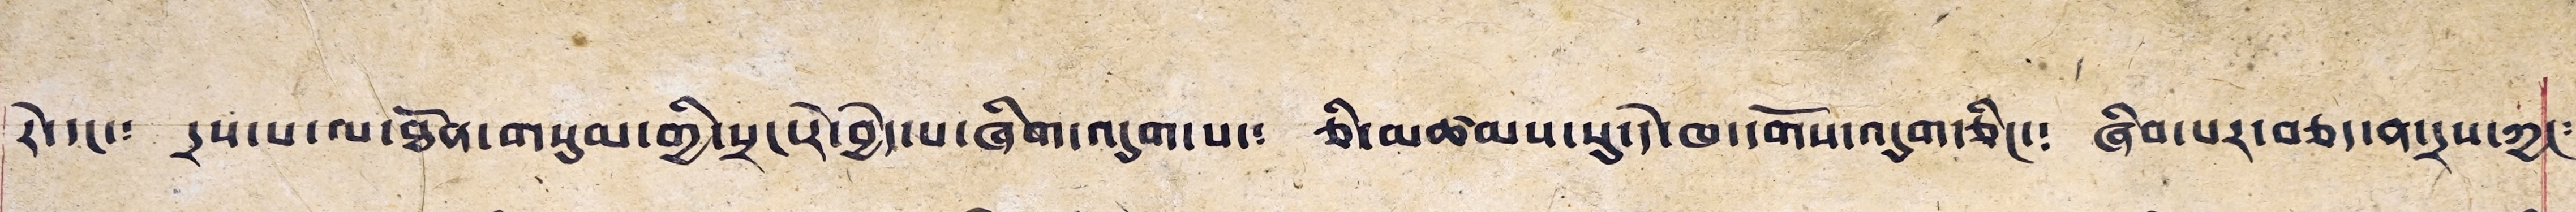རེ་དང་༴ དྲས་པ་ལ་ཐོན་གསུམ་གྱི་སྲང་རེ་བྱེད་པ་ཞིག་འདུག་པ་༴ ཅི་མཚམས་སུ་དེ་ཁ་དགོས་འདུག་ཅིང་༴ ཞིབ་པར་བཅད་ན་དྲས་ཀྱང༴
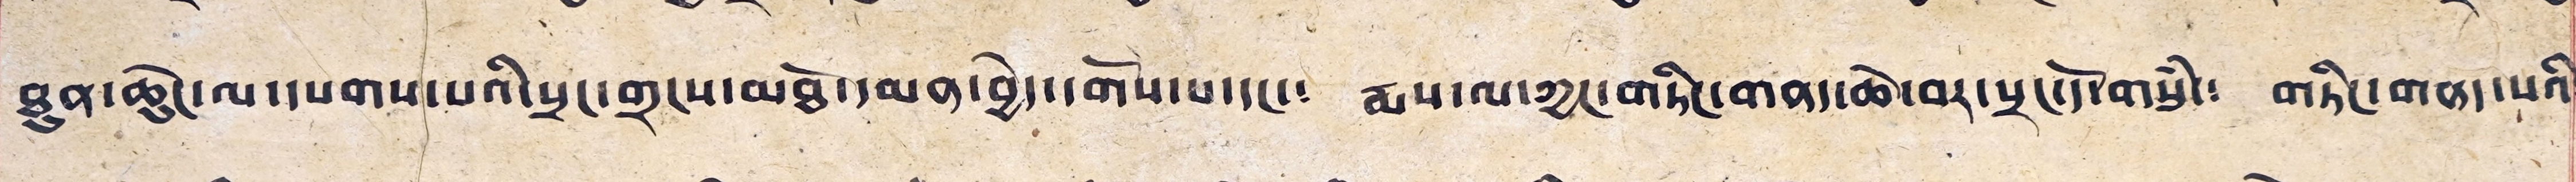ཐུན་ཆེུང་ལ་དཔགས་པའི་སྲང་གྲངས་མཐོ་དམན་བྱེད་དགོས་པ་དང་༴ རྨས་ལ་ཀྱང་གཏིང་གནད་ཆེ་བར་སྲང་དོ་གསུཾ་༴ གཏིང་གནད་པའི༴
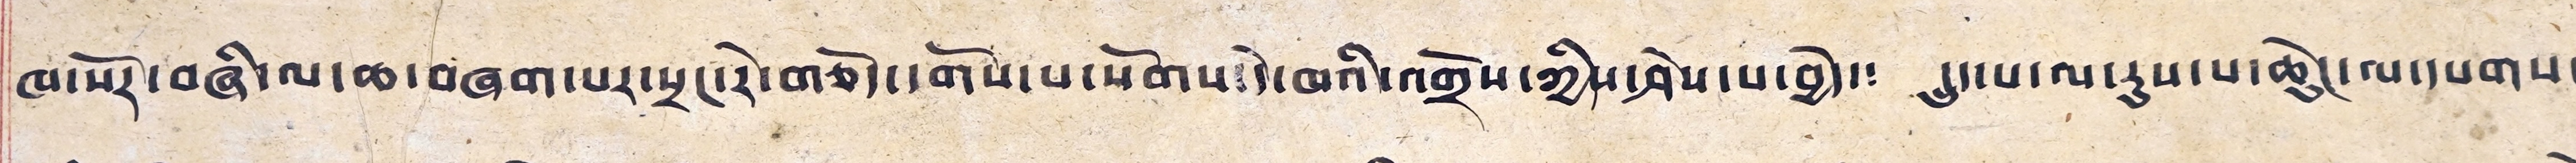ཁ་སོར་བཞི་ལ་ཆ་བཞག་པར་སྲང་རེ་གཅོད་དགོས་པ་སོགས་དེ་ཁའི་འགྲོས་ཀྱིས་ཤེས་པ་བྱེད་༴ དྲུད་པ་ལ་རུས་པ་ཆེུང་ལ་དཔགས་
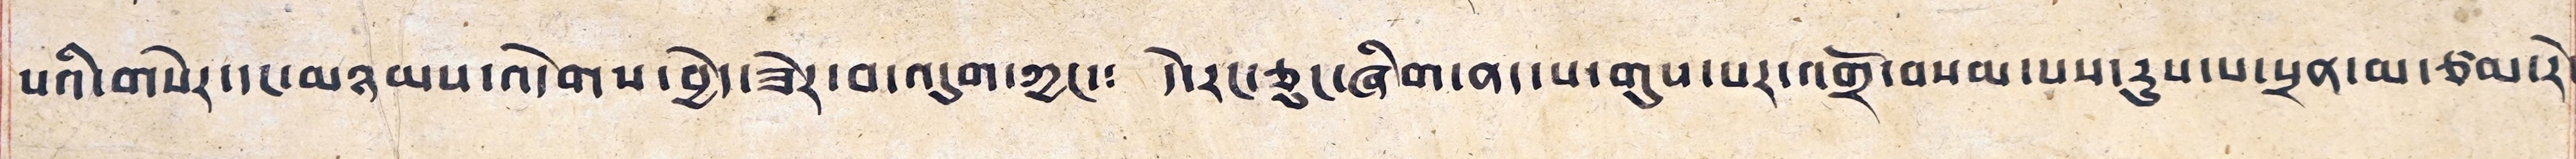པའི་གསེར་དང་མཉམས་འདེགས་བྱེད་ཟེར་བ་འདུག་ཀྱང་༴ དེ་རང་ཅུང་ཞིག་ནད་པ་གུས་པར་འགྲོ་བསམ་པས་རུས་པ་སྲན་མ་ཙམ་རེ་
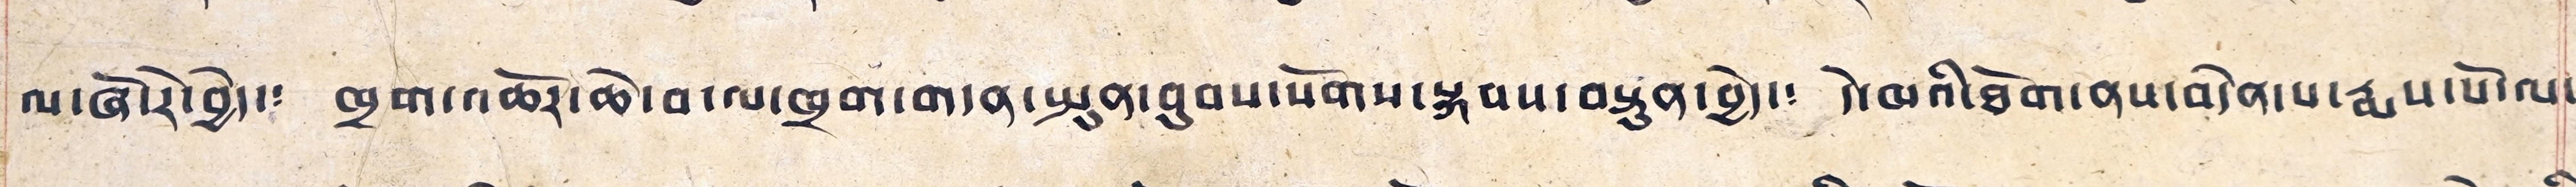ལ་ཞོ་རེ་བྱེད་༴ ཁྲག་འཆོར་ཆེ་བ་ལ་ཁྲག་གདན་སྤུན་བུབས་སོགས་སྐབས་བསྟུན་བྱེད་༴ དེ་ཁའི་ཐོག་ནས་བདེན་པ་རྨས་པོ་ལ་
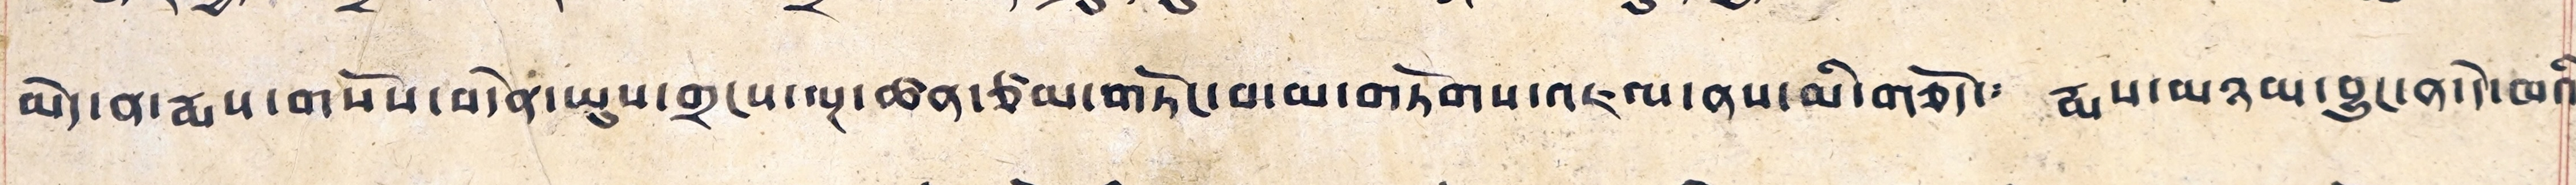མེད་ན་རྨས་གསོས་བདེན་ཡུས་གྲངས་ལྔ་ཚན་ཙམ་གཏོང་བ་མ་གཏོགས་འཇལ་ནས་མི་གཅོད་༴ རྨས་མཉམ་བྱུང་ན་དེ་ཁའི༴
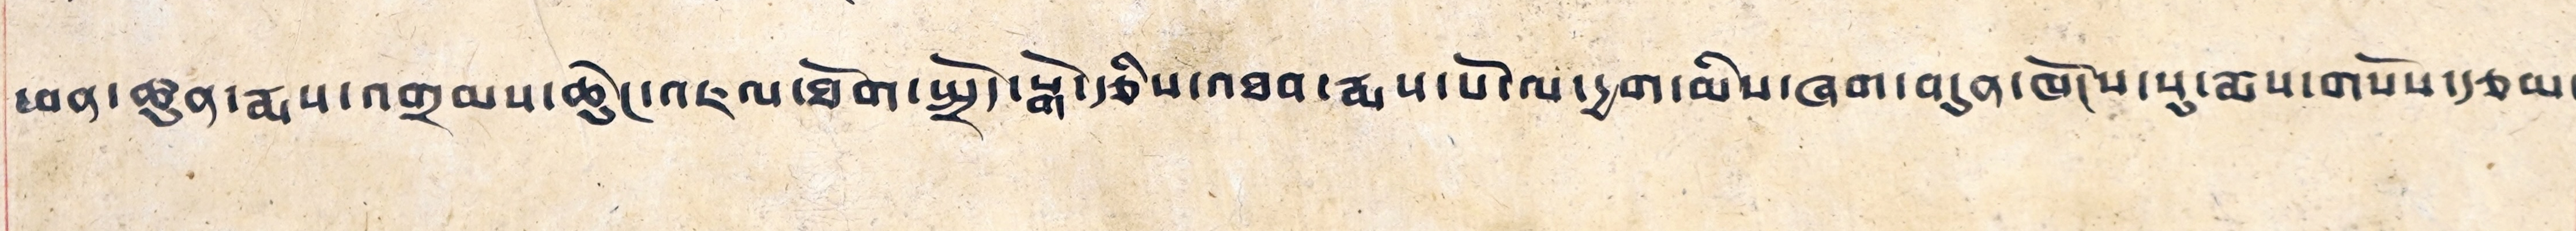ཕན་ཚུན་རྨས་འགྲམས་ཆེུང་འཇལ་ཐོག་སྤྲོད་སྒོ་རྩིས་འཐབ་རྨས་པོ་ལ་དྱག་མིས་ཞག་བདུན་ཁོངས་སུ་རྨས་གསོས་རྩམ་
